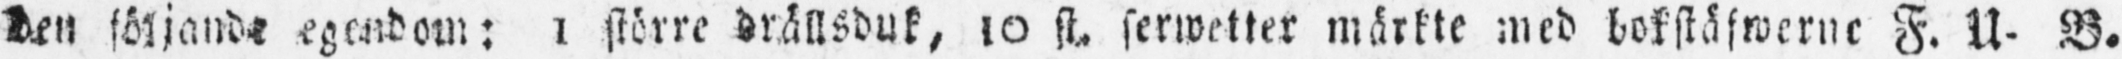den följande egendom: 1 större drällsduk, 10 st. serwetter märkte med bokstäfwerne F. U- B.
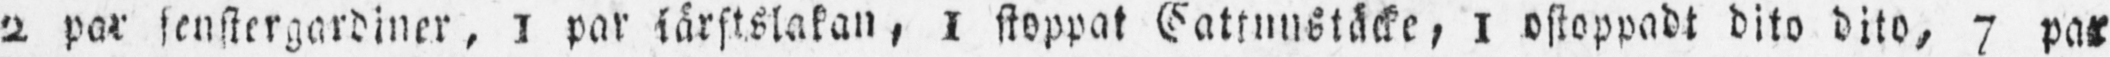2 par fenstergardiner, 1 par lärftslakan, 1 stoppat Cattunstäcke, 1 ostoppadt dito dito, 7 par
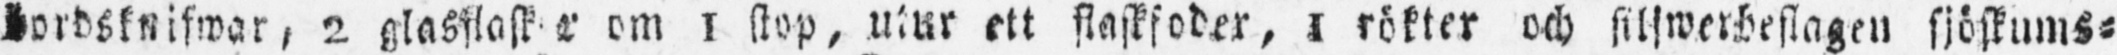bordsknifwar, 2 glasflasker om 1 stop, utur ett flaskfoder, 1 rökter och silfwerbeslagen sjöskums-
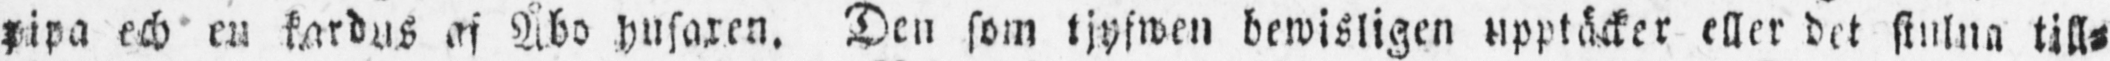pipa ech en kardus af Åbo husaren. Den som tjyfwen bewisligen upptäcker eller det stulna till-
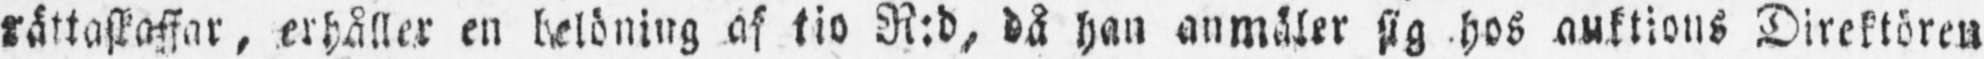rättaskaffar, erhåller en belöning af tio R:d, då han anmäler sig hos auktions Direktören
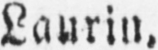Laurin.
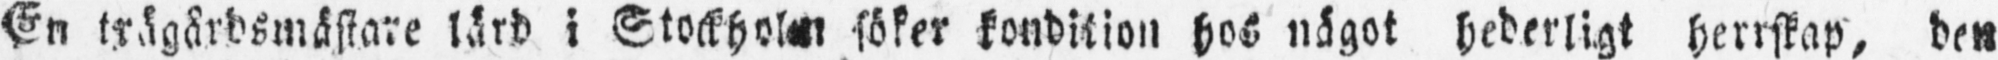En trägårdsmästare lärd i Stockholm söker kondition hos något hederligt herrskap, den
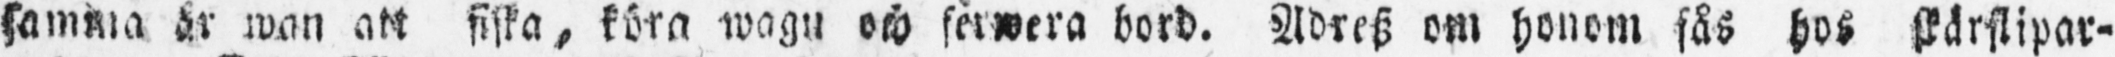samma är wan att fiska, köra wagn och serwera bord. Adresz om honom fås hos skärflipar-
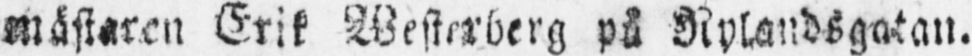mästaren Erik Westerberg på Nylandsgatan.
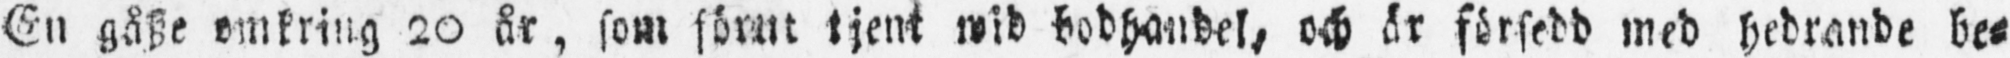En gåsze omkring 20 år, som förut tjent wid bodhandel, och är försedd med hedrande be-
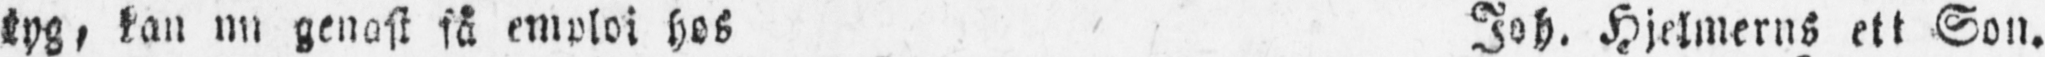tyg, kan nu genast få emploi hos Joh. Hjelmerns ett Son.
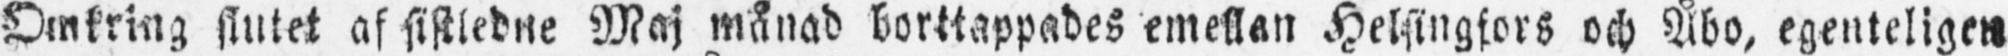Omkring slutet af sistledne Maj månad borttappades emellan Helsingfors och Åbo, egenteligen
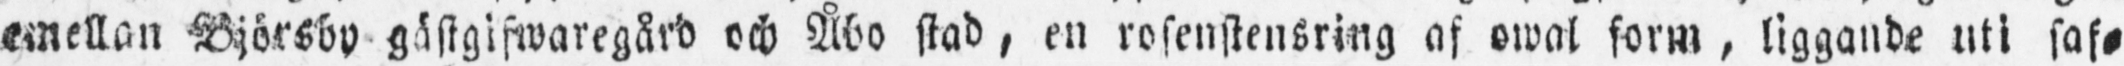emellan Björsby gästgifwaregård och Åbo stad, en rosenstensring af owal form, liggande uti saf-
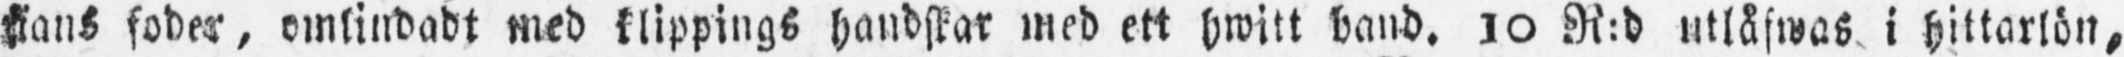fians foder, omlindadt med klippings handskar med ett hwitt band. 10 R:d utlåfwas i hittarlön,
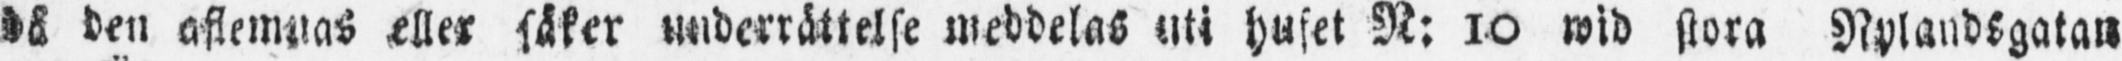då den aflemnas eller säker underrättelse meddelas uti huset N: 10 wid stora Nylandsgatan
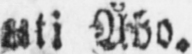uti Åbo.
